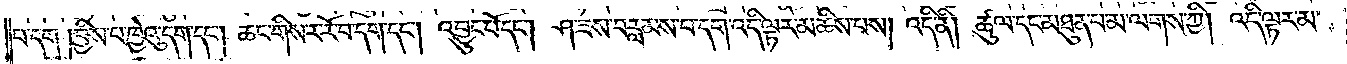པ་དག །བྱིས་པ་ཁྱེའུ་དག་དང༌། ཆང་གིས་ར་རོ་བ་དག་དང༌། འབྱུང་པོ་དང༌། ཤ་ཟས་བརླམས་པ་དག་འདི་ལྟར་མཆིས་པས། འདི་ནི། ཚུལ་དང་མཐུན་པ་མ་ལགས་ཀྱི། འདི་ལྟར་མ་
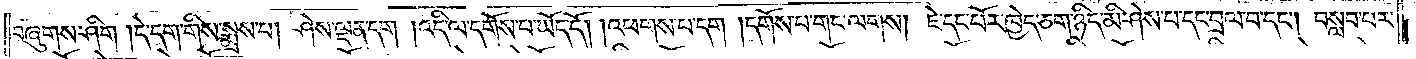བཞུགས་ཤིག །དེ་དག་གིས་སྨྲས་པ། ཤེས་ལྡན་དག །འདི་ལ་དགོས་པ་ཡོད་དོ། །འཕགས་པ་དག །དགོས་པ་གང་ལགས། ཇེ་དང་པོར་ཁྱེད་ཅག་ཉིད་མི་ཤེས་པ་དང་བྲལ་བ་དང༌། བསླབ་པར་
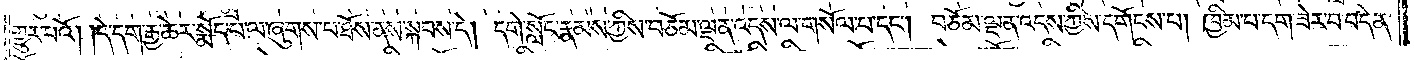གྱུར་པའོ། །དེ་དག་རྒྱ་ཆེར་སྨོད་པ་ལ་ཞུགས་པ་ཐོས་ནས་སྐབས་དེ། དགེ་སློང་རྣམས་ཀྱིས་བཅོམ་ལྡན་འདས་ལ་གསོལ་པ་དང༌། བཅོམ་ལྡན་འདས་ཀྱིས་དགོངས་པ། ཁྱིམ་པ་དག་ཟེར་བ་བདེན་
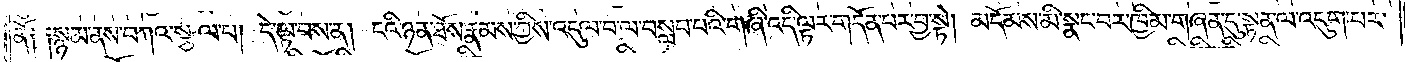ནོ༑ ༑སྙམ་ནས་བཀའ་སྩལ་པ། དེ་ལྟ་བས་ན། ངའི་ཉན་ཐོས་རྣམས་ཀྱིས་འདུལ་བ་ལ་བསླབ་པའི་གཞི་འདི་ལྟར་གདོན་པར་བྱ་སྟེ། མདོམས་མི་སྣང་བར་ཁྱིམ་གཞན་དུ་སྟན་ལ་འདུག་པར་
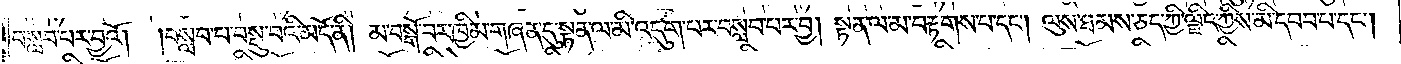བསླབ་པར་བྱའོ། །བསླབ་པ་བསྡུ་བའི་མདོ་ནི། མ་བསྒོ་བར་ཁྱིམ་གཞན་དུ་སྟན་ལ་མི་འདུག་པར་བསླབ་པར་བྱ། སྟན་ལ་མ་བརྟགས་པ་དང༌། ལུས་ཐམས་ཅད་ཀྱི་ལྗིད་ཀྱིས་མི་དབབ་པ་དང༌།
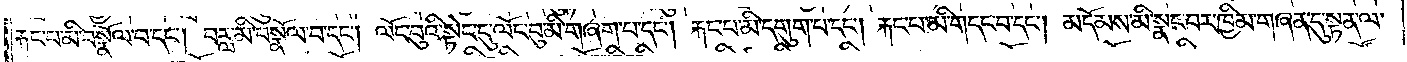རྐང་པ་མི་བསྣོལ་བ་དང༌། བརླ་མི་བསྣོལ་བ་དང༌། ལོང་བུའི་སྟེང་དུ་ལོང་བུ་མི་གཞག་པ་དང༌། རྐང་པ་མི་དགུག་པ་དང༌། རྐང་པ་མི་གདང་བ་དང༌། མདོམས་མི་སྣང་བར་ཁྱིམ་གཞན་དུ་སྟན་ལ་
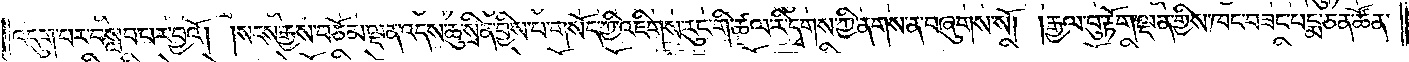འདུག་པར་བསླབ་པར་བྱའོ། །སངས་རྒྱས་བཅོམ་ལྡན་འདས་ཆུ་སྲིན་བྱིས་པ་གསོད་ཀྱི་འཇིགས་རུང་གི་ཚལ་རི་དྭགས་ཀྱི་ནགས་ན་བཞུགས་སོ། །རྒྱལ་བུ་རྟོག་ལྡན་གྱིས་ཁང་བཟང་པདྨ་ཅན་ཚོན་
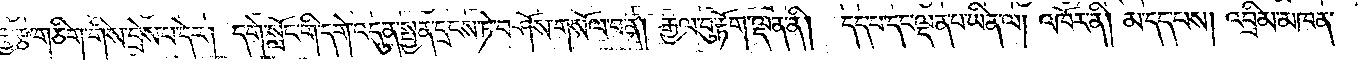བརྒྱ་རྩ་གཅིག་གིས་བྲེས་པ་དེར། དགེ་སློང་གི་དགེ་འདུན་སྤྱན་དྲངས་ཏེ་བཤོས་གསོལ་བ་ན། རྒྱལ་བུ་རྟོག་ལྡན་ནི། དད་པ་དང་ལྡན་པ་ཡིན་ལ། འཁོར་ནི། མ་དད་པས། འབྲིམ་མཁན་
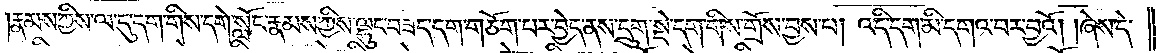རྣམས་ཀྱིས་ལ་དུ་དག་གིས་དགེ་སློང་རྣམས་ཀྱིས་ལྷུང་བཟེད་དག་གཅོག་པར་བྱེད་ནས་དྲུག་སྡེ་དག་གིས་གྲོས་བྱས་པ། འདི་དག་མི་དགའ་བར་བྱའོ། །ཞེས་དེ་
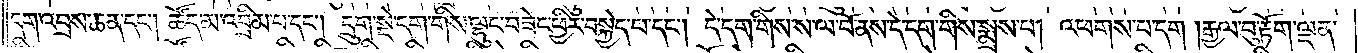དག་འབྲས་ཆན་དང༌། ཚོད་མ་འབྲིམ་པ་དང༌། དྲུག་སྡེ་དག་གིས་ལྷུང་བཟེད་ཕྱིར་བསྐྱེད་པ་དང༌། དེ་དག་གིས་ས་ལ་བོ་ནས་དེ་དག་གིས་སྨྲས་པ། འཕགས་པ་དག །རྒྱལ་བུ་རྟོག་ལྡན་
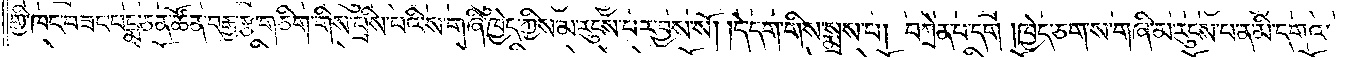གྱི་ཁང་བཟང་པདྨ་ཅན་ཚོན་བརྒྱ་རྩ་གཅིག་གིས་བྲིས་པའི་ས་གཞི་ཁྱེད་ཀྱིས་མ་རུངས་པར་བྱས་སོ། །དེ་དག་གིས་སྨྲས་པ། བཀྲེན་པ་དག །ཁྱེད་ཅག་ས་གཞི་མ་རུངས་པ་ན་མི་དགའ་
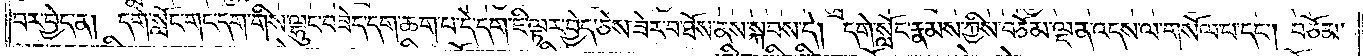བར་བྱེད་ན། དགེ་སློང་གང་དག་གིས་ལྷུང་བཟེད་དག་ཆག་པ་དེ་དག་ཇི་ལྟར་བྱེད་ཅེས་ཟེར་བ་ཐོས་ནས་སྐབས་དེ། དགེ་སློང་རྣམས་ཀྱིས་བཅོམ་ལྡན་འདས་ལ་གསོལ་པ་དང༌། བཅོམ་
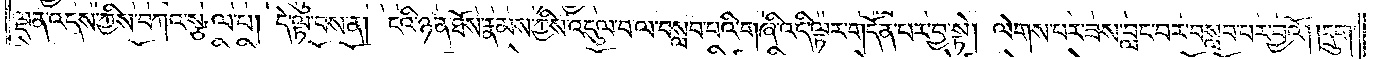ལྡན་འདས་ཀྱིས་བཀའ་སྩལ་པ། དེ་ལྟ་བས་ན། ངའི་ཉན་ཐོས་རྣམས་ཀྱིས་འདུལ་བ་ལ་བསླབ་པའི་གཞི་འདི་ལྟར་གདོན་པར་བྱ་སྟེ། ལེགས་པར་ཟས་བླང་བར་བསླབ་པར་བྱའོ། །དྲུག་
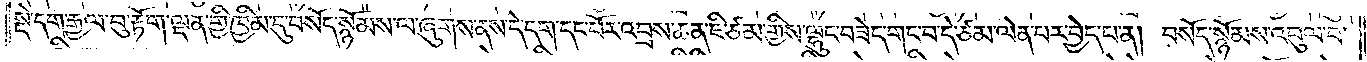སྡེ་དག་རྒྱལ་བུ་རྟོག་ལྡན་གྱི་ཁྱིམ་དུ་བསོད་སྙོམས་ལ་ཞུགས་ནས་དེ་དག་དང་པོར་འབྲས་ཆན་ཇི་ཙམ་གྱིས་ལྷུང་བཟེད་གང་བ་དེ་ཙམ་ལེན་པར་བྱེད་པ་ན། བསོད་སྙོམས་འབུལ་བ་
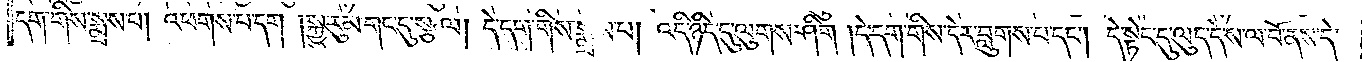དག་གིས་སྨྲས་པ། འཕགས་པ་དག །སྐྱུ་རུམ་གང་དུ་སྩལ། དེ་དག་གིས་སྨྲས་པ། འདི་ཉིད་དུ་ལུགས་ཤིག །དེ་དག་གིས་དེར་བླུགས་པ་དང༌། དེ་སྟེང་དུ་ལུད་དེ་ས་ལ་བོ་ནས་དེ་
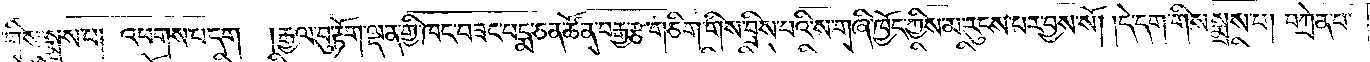དག་གིས་སྨྲས་པ། འཕགས་པ་དག །རྒྱལ་བུ་རྟོག་ལྡན་གྱི་ཁང་བཟང་པདྨ་ཅན་ཚོན་བརྒྱ་རྩ་གཅིག་གིས་བྲིས་པའི་ས་གཞི་ཁྱོད་ཀྱིས་མ་རུངས་པར་བྱས་སོ། །དེ་དག་གིས་སྨྲས་པ། བཀྲེན་པ་
